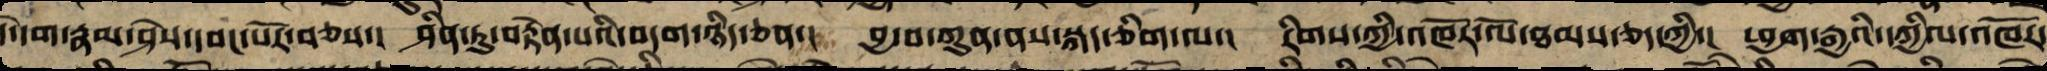དེ་དག་རྣམ་ཤེས་དབང་པོར་བཅས་། ཤིན་ཏུ་བརྟེན་པའི་བདག་ཉིད་ཅན་། བྱ་བ་ཀུན་ནས་སྐད་ཅིག་ལ་། རིགས་ཀྱི་འཁོར་ལོ་ཐམས་ཅད་ཀྱི་། ཕྱག་རྒྱའི་དཀྱིལ་འཁོར་
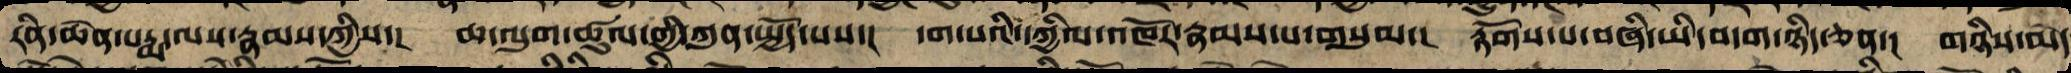རིན་ཆེན་པདྨ་ལས་རྣམས་ཀྱི་། ཆ་ལུགས་ཚུལ་གྱི་ཀུན་སྤྱོད་པས་། དག་པའི་དཀྱིལ་འཁོར་རྣམ་པ་གསུམ་། རྟོག་པ་བཞི་ཡི་བདག་ཉིད་ཅན་། གཉིས་མེད
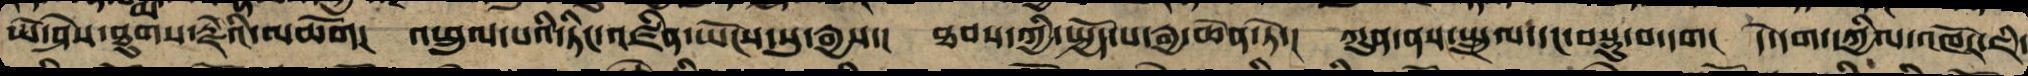ཡེ་ཤེས་ཐུགས་རྗེའི་མཆོག། འཕྲུལ་པའི་ཏིང་འཛིན་ཡོངས་སུ་རྒྱས་། ཐབས་ཀྱི་སྤྱོད་པ་རྒྱ་ཆེན་ཏེ་། ཀུན་ནས་སྤྲུལ་དང་བསྡུ་བ་དག། དེ་དག་དཀྱིལ་འཁོར་ཇི་
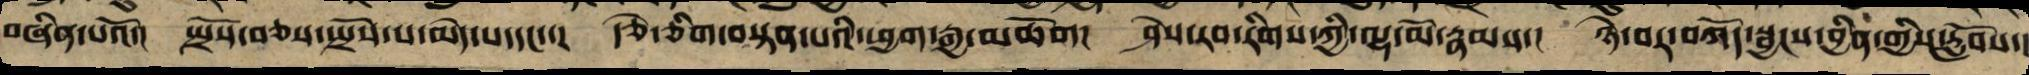བཞིན་པའོ་། སྤྲོས་བཅས་སྤྲོས་པ་མེད་པ་དང་་། རྩེ་གཅིག་བསྟན་པའི་ཕྱག་རྒྱ་མཆོག། ཤེས་རབ་རིགས་ཀྱི་ལྷ་མོ་རྣམས་། ཉེ་བར་བཀོད་སྦྱངས་བྱིན་གྱིས་རློབས་།
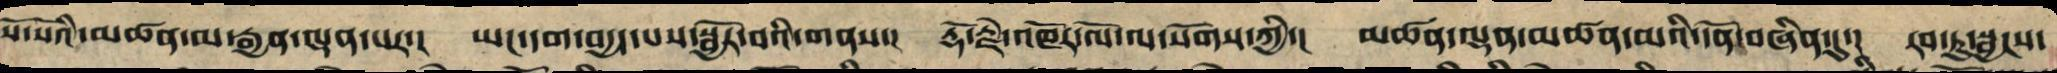སོ་སོའི་མཚན་མ་རྒྱན་ལྡན་པར་། ཡང་དག་བདྱད་པས་སྦྱོར་བའི་གནས་། རྡོ་རྗེ་འཁོར་ལོ་ལ་སོགས་ཀྱི་། མཚན་ལྡན་མཚན་མའི་དོན་བཞིན་དུ་། རབ་ཏུ་སྦྱངས་
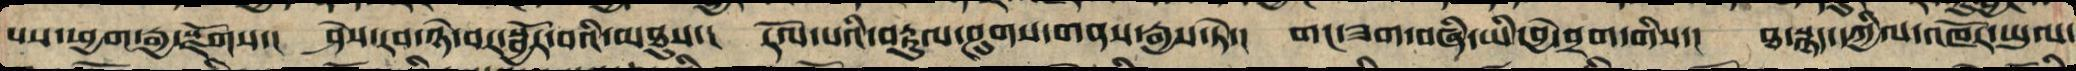པས་ཕྱག་རྒྱ་སྫོགས་། ཤེས་རབ་ཉེ་བར་སྦྱོར་བའི་མཐུས་། རོལ་པའི་བརྟུལ་ཤུགས་གནས་རྒྱས་ཏེ་། གང་ཟག་བཞི་ཡི་བྱེ་བྲག་གིས་། ཐ་སྙད་དཀྱིལ་འཁོར་ཡུལ་
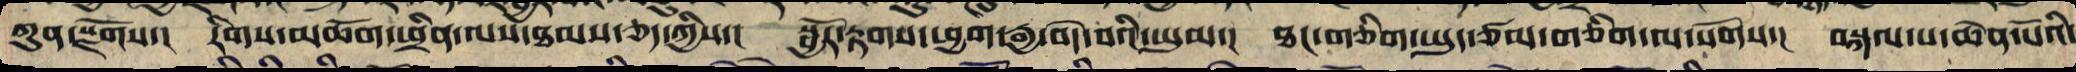ཀུན་སྫོགས་། རིགས་མཆོག་ཕྲིན་ལས་ཐམས་ཅད་ཀྱིས་། སྦྱོར་རྟགས་ཕྱག་རྒྱ་བདེ་བའི་ཡུམ་། ཐང་གཅིག་ཡུད་ཙམ་གཅིག་ལ་སོགས་། བསྐལ་པ་ཆེན་པོའི་
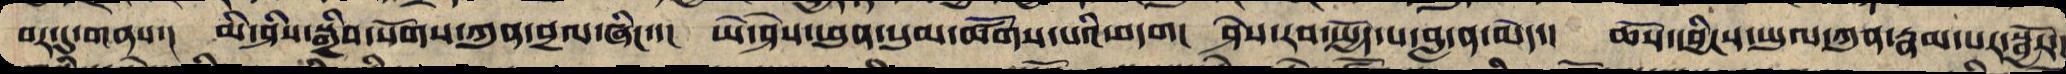བར་དུ་གནས་། མི་ཤེས་སྒྲིབ་སོགས་ཀུན་བྲལ་ཞིང་་། ཡེ་ཤེས་ཕུན་སུམ་ཚོགས་པའི་བདག། ཤེས་རབ་སྤྱོད་པ་བླ་ན་མེད་། ཆོས་དབྱིངས་ཡུལ་ཀུན་རྣམ་པར་སྦྱོར་།
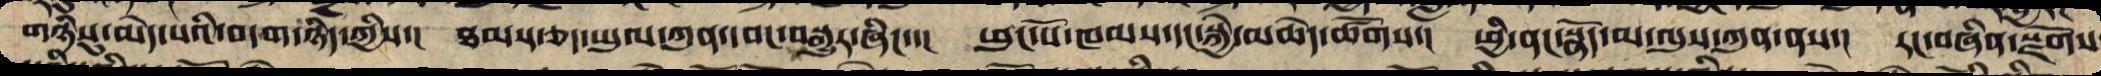གཉིསུ་མེད་པའི་བདག་ཉིད་ཀྱིས་། ཐམས་ཅད་ཡུལ་ཀུན་དབང་བསྒྱུར་ཞིང་་། ཕུང་པོ་ཁམས་དང་སྐྱེ་མཆེད་སོགས་། ཕྱི་ནང་སྣོད་བཅུད་མ་ལུས་ཀུན་། རང་བཞིན་སྫོགས་
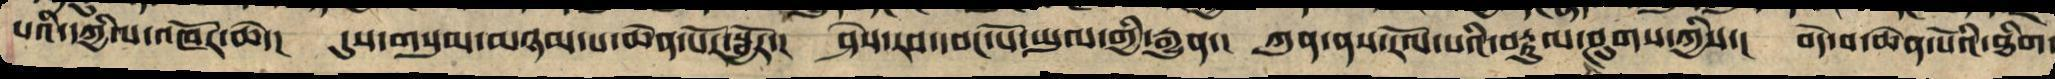པའི་དཀྱིལ་འཁོར་ཆེ་། དུས་གསུམ་མཉམ་པ་ཆེན་པོར་སྦྱོར་། ཤེས་རབ་དབང་པོ་ཡུལ་གྱི་རྒྱུན་། ཀུན་ནས་རོལ་པའི་བརྟུལ་ཤུགས་ཀྱིས་། བདེ་བ་ཆེན་པོའི་ཐིག་
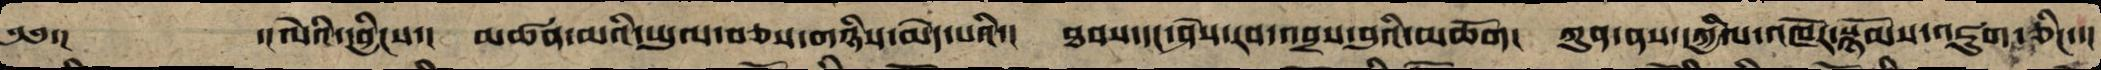༄༅་། ་།ལེའི་དབྱིངས་། མཚན་མའི་ཡུལ་བཅས་གཉིས་མེད་པའི་། ཐབས་དང་ཤེས་རབ་འབྲས་བུའི་མཆོག། ཀུན་ནས་དཀྱིལ་འཁོར་སྙོམས་འཇུག་ཅིང་་།
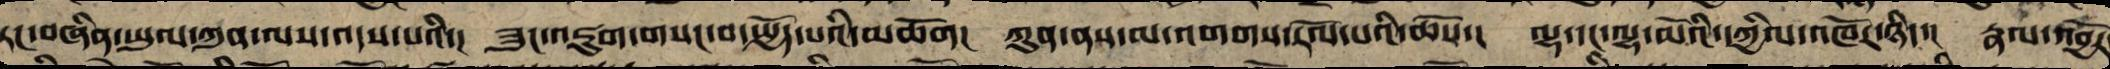རང་བཞིན་ཡུལ་ཀུན་ལས་འདས་པའི་། ཟུང་འཇུག་གསང་བ་སྤྱོད་པའི་མཆོག། ཀུན་ནས་མ་འགགས་རོལ་པའི་ཆོས་། ལྷ་དང་ལྷ་མོའི་དཀྱིལ་འཁོར་ཉིད་། རྣལ་འབྱོར
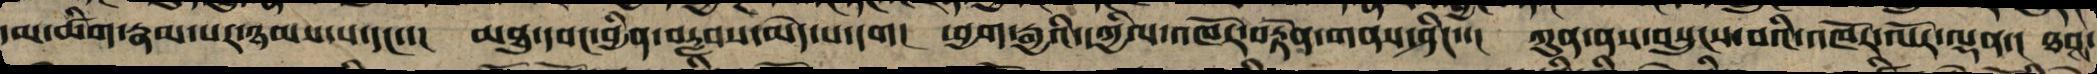དམ་ཚིག་རྣམ་པར་ཉམས་པ་དང་་། མཐུ་དབང་བྱིན་བརླབས་མེད་པ་དག། ཕྱག་རྒྱའི་དཀྱིལ་འཁོར་བརྟེན་གནས་ཤིང་་། ཀུན་ནས་བསྲུང་བའི་འཁོར་ལོར་ལྡན་། ཐབས་
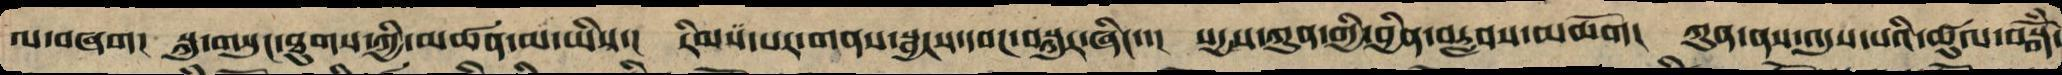ལ་བཞག། སྐུ་གསུང་ཐུགས་ཀྱི་མཚན་མ་ཡིས་། རིམ་པར་གནས་སྦྱངས་དབང་བསྐུར་ཞིང་་། སངས་རྒྱས་ཀུན་གྱི་བྱིན་་རླབས་མཆོག། ཀུན་ནས་འདུས་པའི་ཚུལ་བསྒོཾ་
